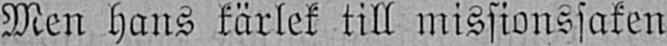Men hans kärlek till missionssaken
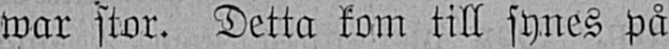war stor. Detta kom till synes på
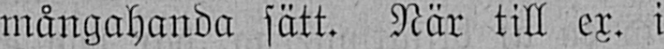mångahanda sätt. När till ex. i
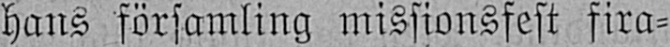hans församling missionsfest fira-
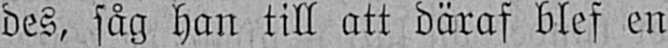des, såg han till att däraf blef en
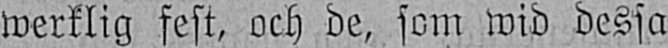werklig fest, och de, som wid dessa
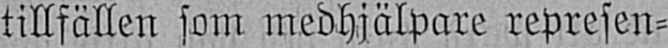tillfällen som medhjälpare represen-
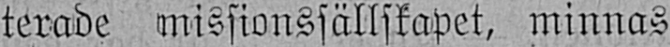terade missionssällskapet, minnas
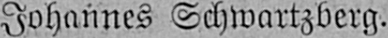Johannes Schwartzberg.
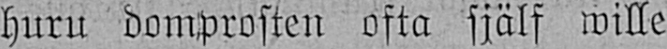huru domprosten ofta själf wille
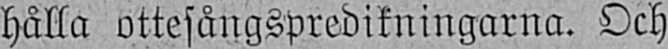hålla ottesångspredikningarna. Och
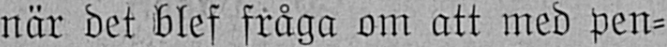när det blef fråga om att med pen-
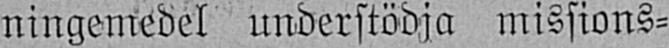ningemedel understödja missions-
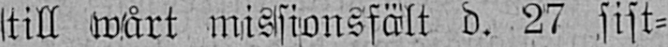till wårt missionsfält d. 27 sist-
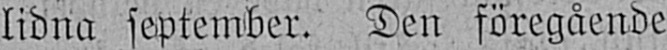lidna september. Den föregående
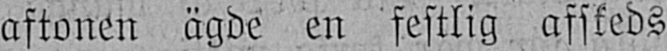aftonen ägde en festlig afskeds
